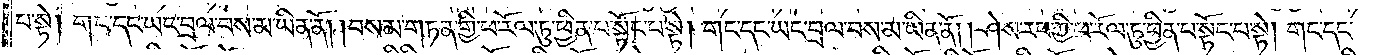པ་སྟེ། གང་དང་ཡང་བྲལ་བས་མ་ཡིན་ནོ། །བསམ་གཏན་གྱི་ཕ་རོལ་ཏུ་ཕྱིན་པ་སྟོང་པ་སྟེ། གང་དང་ཡང་བྲལ་བས་མ་ཡིན་ནོ། །ཤེས་རབ་ཀྱི་ཕ་རོལ་ཏུ་ཕྱིན་པ་སྟོང་པ་སྟེ། གང་དང་
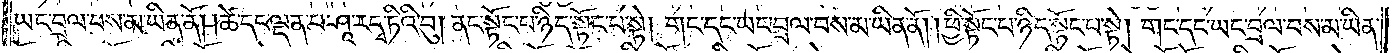ཡང་བྲལ་བས་མ་ཡིན་ནོ། །ཚེ་དང་ལྡན་པ་ཤཱ་ར་དྭ་ཏིའི་བུ། ནང་སྟོང་པ་ཉིད་སྟོང་པ་སྟེ། གང་དང་ཡང་བྲལ་བས་མ་ཡིན་ནོ། །ཕྱི་སྟོང་པ་ཉིད་སྟོང་པ་སྟེ། གང་དང་ཡང་བྲལ་བས་མ་ཡིན་
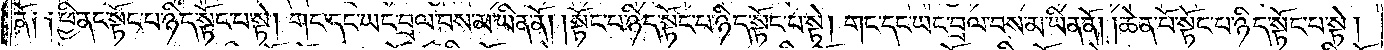ནོ། །ཕྱི་ནང་སྟོང་པ་ཉིད་སྟོང་པ་སྟེ། གང་དང་ཡང་བྲལ་བས་མ་ཡིན་ནོ། །སྟོང་པ་ཉིད་སྟོང་པ་ཉིད་སྟོང་པ་སྟེ། གང་དང་ཡང་བྲལ་བས་མ་ཡིན་ནོ། །ཆེན་པོ་སྟོང་པ་ཉིད་སྟོང་པ་སྟེ།
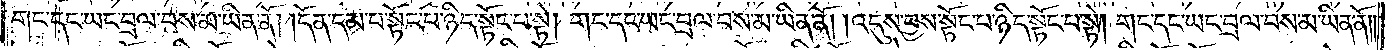གང་དང་ཡང་བྲལ་བས་མ་ཡིན་ནོ། །དོན་དམ་པ་སྟོང་པ་ཉིད་སྟོང་པ་སྟེ། གང་དང་ཡང་བྲལ་བས་མ་ཡིན་ནོ། །འདུས་བྱས་སྟོང་པ་ཉིད་སྟོང་པ་སྟེ། གང་དང་ཡང་བྲལ་བས་མ་ཡིན་ནོ། །
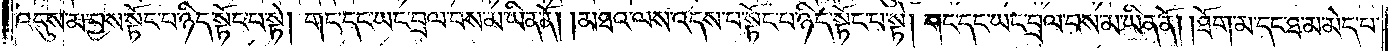འདུས་མ་བྱས་སྟོང་པ་ཉིད་སྟོང་པ་སྟེ། གང་དང་ཡང་བྲལ་བས་མ་ཡིན་ནོ། །མཐའ་ལས་འདས་པ་སྟོང་པ་ཉིད་སྟོང་པ་སྟེ། གང་དང་ཡང་བྲལ་བས་མ་ཡིན་ནོ། །ཐོག་མ་དང་ཐ་མ་མེད་པ་
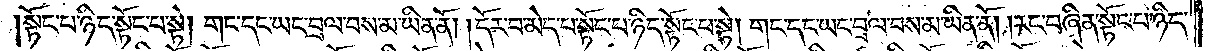སྟོང་པ་ཉིད་སྟོང་པ་སྟེ། གང་དང་ཡང་བྲལ་བས་མ་ཡིན་ནོ། །དོར་བ་མེད་པ་སྟོང་པ་ཉིད་སྟོང་པ་སྟེ། གང་དང་ཡང་བྲལ་བས་མ་ཡིན་ནོ། །རང་བཞིན་སྟོང་པ་ཉིད་
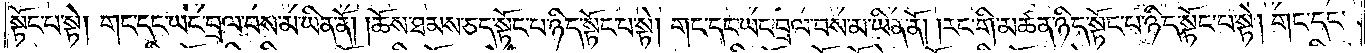སྟོང་པ་སྟེ། གང་དང་ཡང་བྲལ་བས་མ་ཡིན་ནོ། །ཆོས་ཐམས་ཅད་སྟོང་པ་ཉིད་སྟོང་པ་སྟེ། གང་དང་ཡང་བྲལ་བས་མ་ཡིན་ནོ། །རང་གི་མཚན་ཉིད་སྟོང་པ་ཉིད་སྟོང་པ་སྟེ། གང་དང་
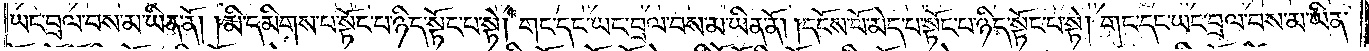ཡང་བྲལ་བས་མ་ཡིན་ནོ། །མི་དམིགས་པ་སྟོང་པ་ཉིད་སྟོང་པ་སྟེ། གང་དང་ཡང་བྲལ་བས་མ་ཡིན་ནོ། །དངོས་པོ་མེད་པ་སྟོང་པ་ཉིད་སྟོང་པ་སྟེ། གང་དང་ཡང་བྲལ་བས་མ་ཡིན་
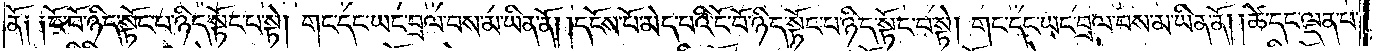ནོ༑༑ངོ་བོ་ཉིད་སྟོང་པ་ཉིད་སྟོང་པ་སྟེ། གང་དང་ཡང་བྲལ་བས་མ་ཡིན་ནོ། །དངོས་པོ་མེད་པའི་ངོ་བོ་ཉིད་སྟོང་པ་ཉིད་སྟོང་པ་སྟེ། གང་དང་ཡང་བྲལ་བས་མ་ཡིན་ནོ། །ཚེ་དང་ལྡན་པ་
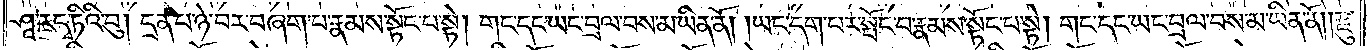ཤཱ་ར་དྭ་ཏིའི་བུ། དྲན་པ་ཉེ་བར་བཞག་པ་རྣམས་སྟོང་པ་སྟེ། གང་དང་ཡང་བྲལ་བས་མ་ཡིན་ནོ། །ཡང་དག་པར་སྤོང་བ་རྣམས་སྟོང་པ་སྟེ། གང་དང་ཡང་བྲལ་བས་མ་ཡིན་ནོ། །རྫུ་
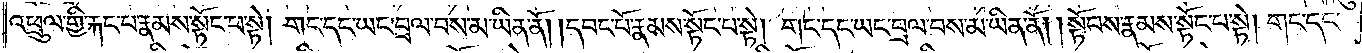འཕྲུལ་གྱི་རྐང་པ་རྣམས་སྟོང་པ་སྟེ། གང་དང་ཡང་བྲལ་བས་མ་ཡིན་ནོ། །དབང་པོ་རྣམས་སྟོང་པ་སྟེ། གང་དང་ཡང་བྲལ་བས་མ་ཡིན་ནོ། །སྟོབས་རྣམས་སྟོང་པ་སྟེ། གང་དང་
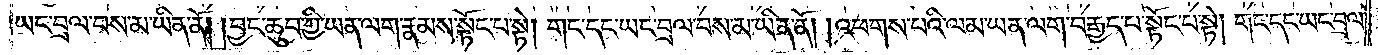ཡང་བྲལ་བས་མ་ཡིན་ནོ། །བྱང་ཆུབ་ཀྱི་ཡན་ལག་རྣམས་སྟོང་པ་སྟེ། གང་དང་ཡང་བྲལ་བས་མ་ཡིན་ནོ། །འཕགས་པའི་ལམ་ཡན་ལག་བརྒྱད་པ་སྟོང་པ་སྟེ། གང་དང་ཡང་བྲལ་
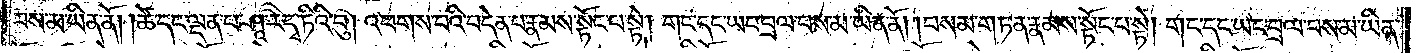བས་མ་ཡིན་ནོ། །ཚེ་དང་ལྡན་པ་ཤཱ་ར་དྭ་ཏིའི་བུ། འཕགས་པའི་བདེན་པ་རྣམས་སྟོང་པ་སྟེ། གང་དང་ཡང་བྲལ་བས་མ་ཡིན་ནོ། །བསམ་གཏན་རྣམས་སྟོང་པ་སྟེ། གང་དང་ཡང་བྲལ་བས་མ་ཡིན་
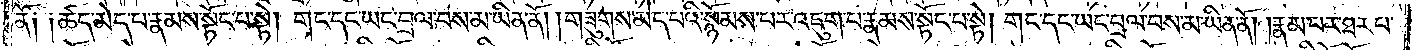ནོ༑ ༑ཚད་མེད་པ་རྣམས་སྟོང་པ་སྟེ། གང་དང་ཡང་བྲལ་བས་མ་ཡིན་ནོ། །གཟུགས་མེད་པའི་སྙོམས་པར་འཇུག་པ་རྣམས་སྟོང་པ་སྟེ། གང་དང་ཡང་བྲལ་བས་མ་ཡིན་ནོ། །རྣམ་པར་ཐར་པ་
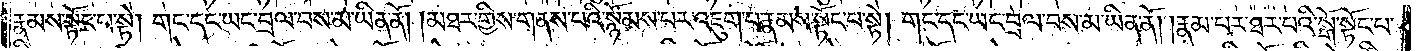རྣམས་སྟོང་པ་སྟེ། གང་དང་ཡང་བྲལ་བས་མ་ཡིན་ནོ། །མཐར་གྱིས་གནས་པའི་སྙོམས་པར་འཇུག་པ་རྣམས་སྟོང་པ་སྟེ། གང་དང་ཡང་བྲལ་བས་མ་ཡིན་ནོ། །རྣམ་པར་ཐར་པའི་སྒོ་སྟོང་པ་
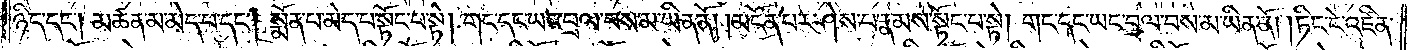ཉིད་དང༌། མཚན་མ་མེད་པ་དང༌། སྨོན་པ་མེད་པ་སྟོང་པ་སྟེ། གང་དང་ཡང་བྲལ་བས་མ་ཡིན་ནོ། །མངོན་པར་ཤེས་པ་རྣམས་སྟོང་པ་སྟེ། གང་དང་ཡང་བྲལ་བས་མ་ཡིན་ནོ། །ཏིང་ངེ་འཛིན་
